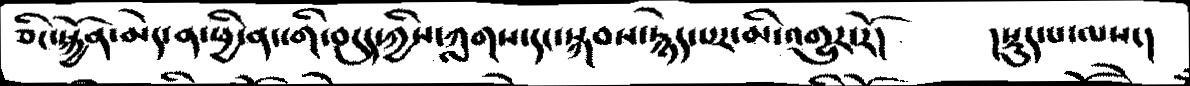ཅིང་སྐྱོན་མེད་ན་ཕྱི་ནང་གི་བདུད་ཀྱིས་ཀླགས་དང་སྐབས་རྙེད་པར་མི་འགྱུར་རོ།   །སྡུད་པ་ལས་།
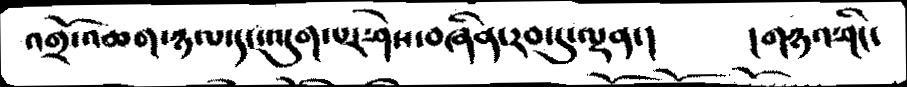འགྲོ་འཆག་ཉལ་དང་འདུག་པར་ཤེས་བཞིན་རབ་དུ་ལྡན་།   །གཉའ་ཤིང་
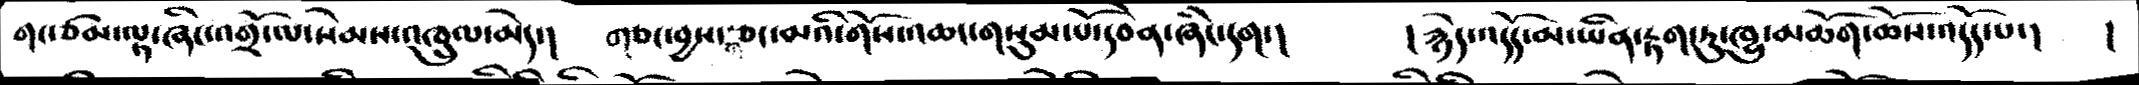གང་ཙམ་ལྟ་ཞིང་འགྲོ་ལ་སེམས་འཁྲུལ་མེད་།  གཅང་བྱས་གཅང་མའི་གོས་འཆང་གསུམ་པོ་དབེན་ཞིང་དག་།  ། རྙེད་འདོད་མ་ཡིན་རྟག་ཏུ་ཁྱུ་མཆོག་ཆོས་འདོད་པ་།   །
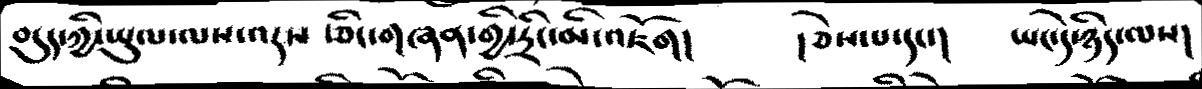བདུད་ཀྱི་ཡུལ་ལས་འདས་ཅིང་གཞན་གྱི་དྲིང་མི་འཇོག།  །ཅེས་པ་དང་།  ཡང་དེ་ཉིད་ལས།
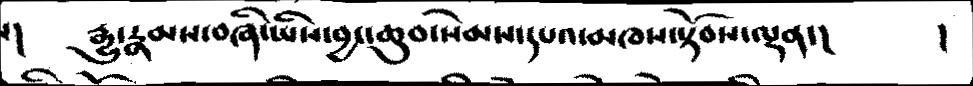ས།    རྒྱུ་རྣམས་བཞི་ཡིས་བྱང་ཆུབ་སེམས་དཔའ་མཁས་སྟོབས་ལྡན་།    །
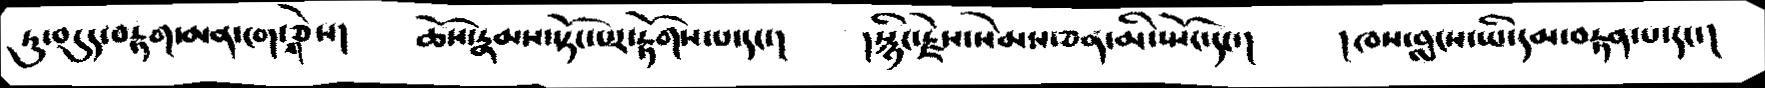ཏུ་བདུད་བརྟག་མན་ངག་གཅེས།   ཆོས་རྣམས་སྟོང་པར་རྟོགས་པ་དང་།   །སྙིང་རྗེས་སེམས་ཅན་མི་སྤོང་དང་།   །ཁས་བླངས་ཡི་དམ་བརྟན་པ་དང་།
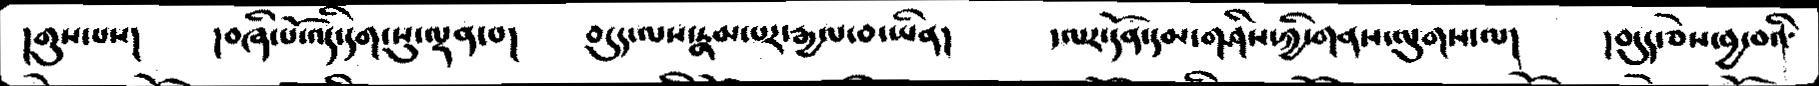།གུས་པས།   །བཞི་པོ་འདི་དག་སུ་ལྡན་པ།   བདུད་ལས་རྣམ་པར་རྒྱལ་བ་ཡིན།   །ལར་དོན་དམ་གཤིས་ཀྱི་གནས་ལུགས་ལ།   །བདུད་ཅེས་བྱ་བའི་
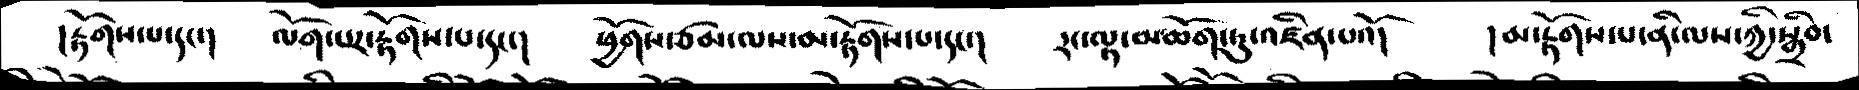།རྟོགས་པ་དང་།  ལོག་པར་རྟོགས་པ་དང་།  ཕྱོགས་ཙམ་ལས་མ་རྟོགས་པ་དང་།  རང་ལྟ་མཆོག་ཏུ་འཛིན་པའོ།  །མ་རྟོགས་པ་ནི་ལས་ཀྱི་སྒྲིབ་
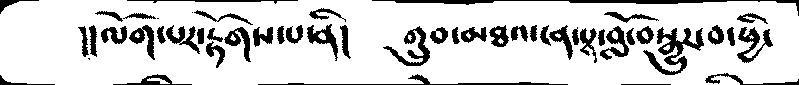།།ལོག་པར་རྟོགས་པ་ནི།  གྲུབ་མཐའ་ངན་པས་བློ་བསྒྱུར་བ་ཕྱི་
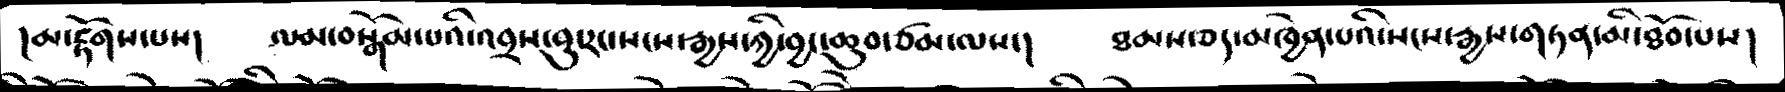།མ་རྟོགས་པས།   ལམ་བསྒོམ་པའི་འབྲས་བུ་རང་སངས་རྒྱས་ཀྱི་བྱང་ཆུབ་ཙམ་ལས་།   ཐམས་ཅད་མཁྱེན་པའི་སངས་རྒྱས་གཏན་མི་ཐོབ་པས།
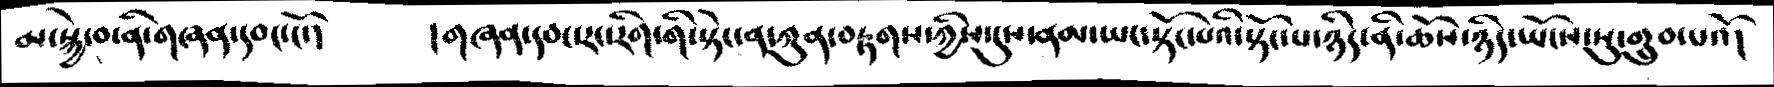མ་སྐྱེ་བ་ནི་གཞན་དབང་ངོ་།   །གཞན་དབང་རང་རིག་གི་སྟེང་ན་ཀུན་བརྟགས་ཀྱིས་དུས་ནམ་ཡང་སྟོང་པའི་སྟོང་པ་ཉིད་ནི་ཆོས་ཉིད་ཡོངས་སུ་གྲུབ་པའོ།
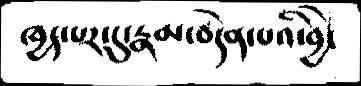ཁྱད་པར་དུ་རྣམ་བདེན་པའི་བྱེ་
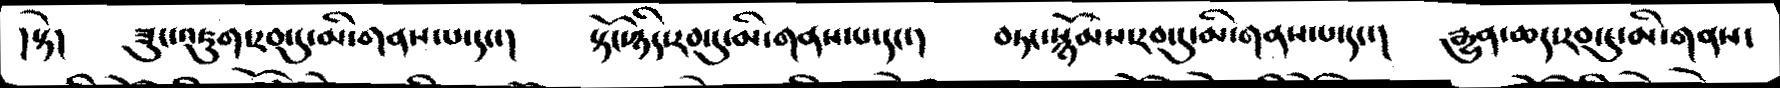།སྟེ།  ཟུང་འཇུག་རབ་དུ་མི་གནས་པ་དང་།  སྟོང་ཉིད་རབ་དུ་མི་གནས་པ་དང་།  བཏང་སྙོམས་རབ་དུ་མི་གནས་པ་དང་།  རྒྱུན་ཆད་རབ་དུ་མི་གནས་
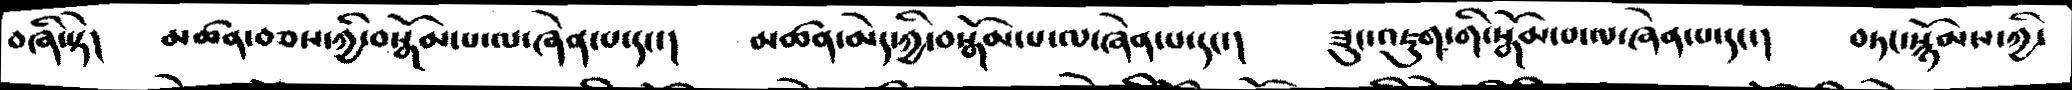བཞི་སྟེ།   མཚན་བཅས་ཀྱི་བསྒོམ་པ་ལ་ཞེན་པ་དང་།   མཚན་མེད་ཀྱི་བསྒོམ་པ་ལ་ཞེན་པ་དང་།   ཟུང་འཇུག་གི་སྒོམ་པ་ལ་ཞེན་པ་དང་།   བཏང་སྙོམས་ཀྱི་
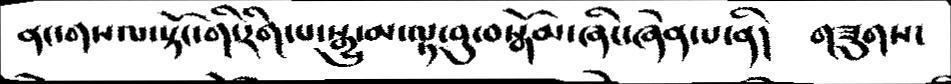ནང་གསལ་སྟོང་གི་རིག་པ་སྒྱུ་མ་ལྟ་བུ་བསྒོམ་ཞིང་ཞེན་པ་ནི།    གཟུགས་
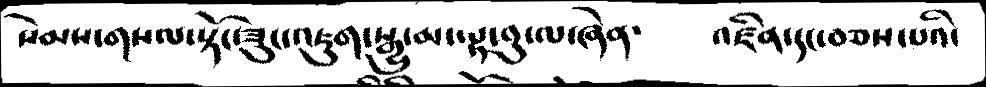སེམས་གསལ་སྟོང་ཟུང་འཇུག་སྒྱུ་མ་ལྟ་བུ་ལ་ཞེན་   འཛིན་དང་བཅས་པའི་
